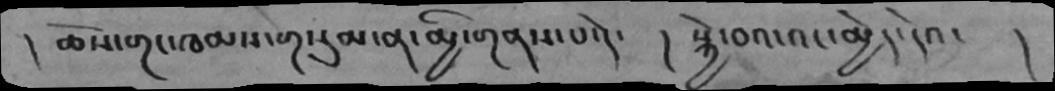། ཆོས་གང་ཁམས་གསུམ་ན་མྱི་གནས་པ་དེ་  ། སྐྱེ་བའ་འང་མྱེད་དེའ་     །
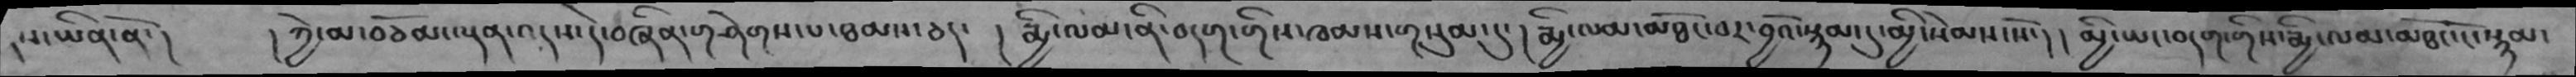།པ་ཡིན་ནོ་།     ། ཀྱེ་མ་བཅོམ་ལྡན་འདས་དེ་བཞིན་གཤེགས་པ་ཐམས་ཅད་  ། རྨྱི་ལམ་ནི་བདག་གིས་ཁམས་གསུམ་དུ་ ། རྨྱི་ལམ་མཐོང་བར་བྱའོ་སྙམ་དུ་མྱི་སེམས་སོ་། ། མྱི་ཡང་བདག་གིས་རྨྱི་ལམ་མཐོང་ངོ་སྙམ་
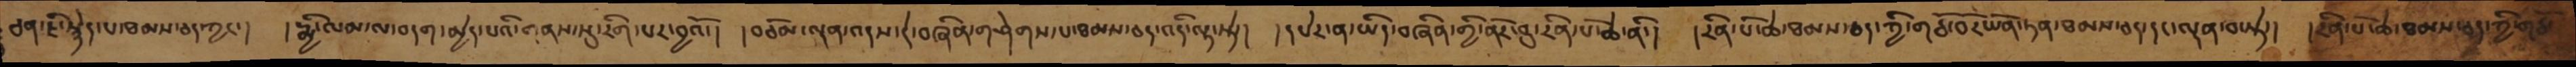ཅན་ཇི་སྙེད་པ་ཐམས་ཅད་ཀྱང་།  །རྨྱི་ལམ་ལ་བདག་མྱེད་པའི་གནས་སུ་རིག་པར་བྱའོ་།  །བཅོམ་ལྡན་འདས་དེ་བཞིན་གཤེགས་པ་ཐམས་ཅད་འདི་ལྟ་སྟེ་།  །དཔེར་ན་ཡིད་བཞིན་གྱི་ནོར་བུ་རིན་པོ་ཆེ་ནི་།  །རིན་པོ་ཆེ་ཐམས་ཅད་ཀྱི་གཙོ་བོར་ཡོན་ཏན་ཐམས་ཅད་དང་ལྡན་བ་སྟེ་།  །རིན་པོ་ཆེ་ཐམས་ཅད་ཀྱི་གཙོ
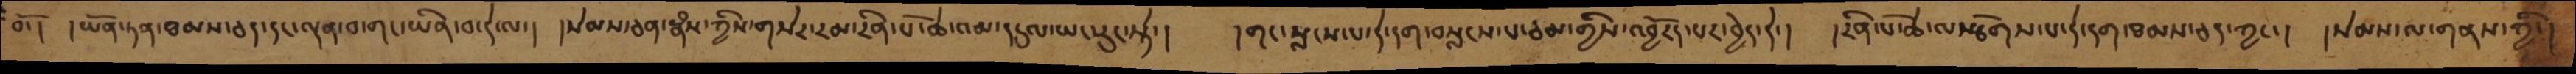བོ་། །ཡོན་ཏན་ཐམས་ཅད་དང་ལྡན་བ་གང་ཡིན་བ་དེ་ལ་། །སེམས་ཅན་རྣཾས་ཀྱིས་གསེར་རམ་རིན་པོ་ཆེ་འམ་དངུལ་ཡང་རུང་སྟེ་།  །གང་སླངས་པ་དེ་དག་བསླངས་པ་ཙམ་གྱིས་འབྱོརད་པར་བྱེད་དེ་།  །རིན་པོ་ཆེ་ལསྩོགས་པ་དེ་དག་ཐམས་ཅད་ཀྱང་།  །སེམས་ལ་གནས་ཀྱི་།
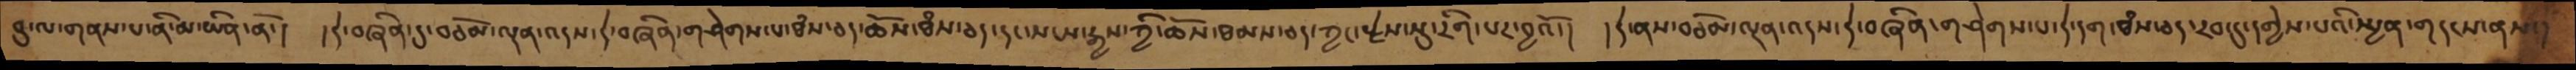བུ་ལ་གནས་པ་ནི་མ་ཡིན་ནོ་།  །དེ་བཞིན་དུ་བཅོམ་ལྡན་འདས་དེ་བཞིན་གཤེགས་པ་ཐཾས་ཅད་ཆོས་ཐཾས་ཅད་དང་སངས་རྒྱས་ཀྱི་ཆོས་ཐམས་ཅད་ཀྱང་རྗེས་སུ་རིག་པར་བྱའོ་།  །དེ་ནས་བཅོམ་ལྡན་འདས་དེ་བཞིན་གཤེགས་པ་དེ་དག་ཐཾས་ཅད་རབ་ཏུ་དགྱེས་པའི་སྤྱན་གདངས་ནས་།
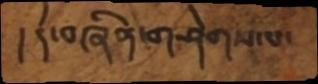།དེ་བཞིན་གཤེགས་པ་
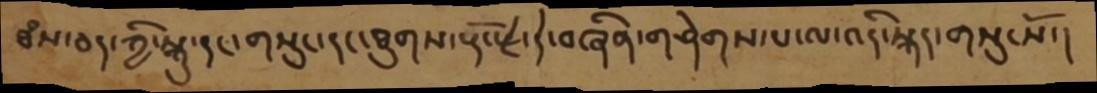ཐཾས་ཅད་ཀྱི་སྐུ་དང་གསུང་དང་ཐུགས་རྡོ་རྗེ་དེ་བཞིན་གཤེགས་པ་ལ་འདི་སྐད་གསུངསོ་།
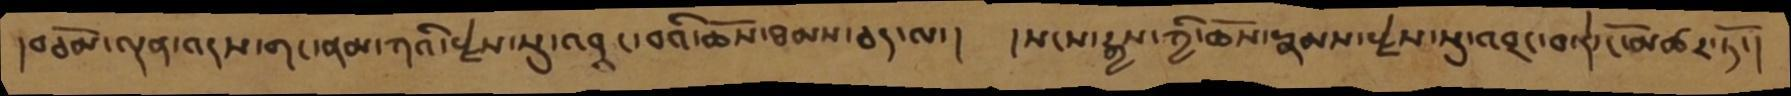།བཅོམ་ལྡན་འདས་གང་ནམ་ཀའི་རྗེས་སུ་འབྲང་བའི་ཆོས་ཐམས་ཅད་ལ་།  །སངས་རྒྱས་ཀྱི་ཆོས་རྣམས་རྗེས་སུ་འབྲང་བ་དེ་ངོ་མཚར་ཏོ་།
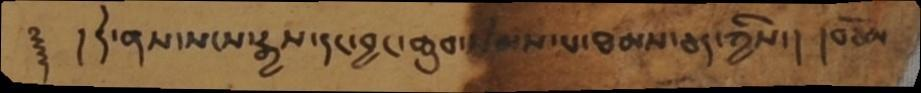༈ །དེ་ནས་སངས་རྒྱས་དང་བྱང་ཆུབ་སེམས་པ་ཐམས་ཅད་ཀྱིས་།  །བཅོམ
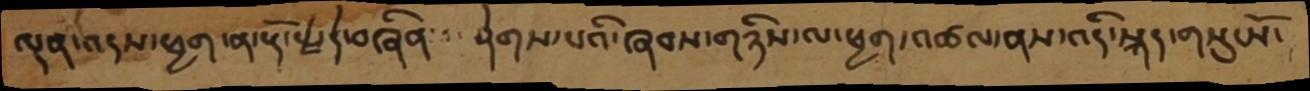ལྡན་འདས་ཕྱག་ན་རྡོ་རྗེ་དེ་བཞིན་་ གཤེགས་པའི་ཞབས་གཉིས་ལ་ཕྱག་འཚལ་ནས་འདི་སྐད་གསུངསོ་།
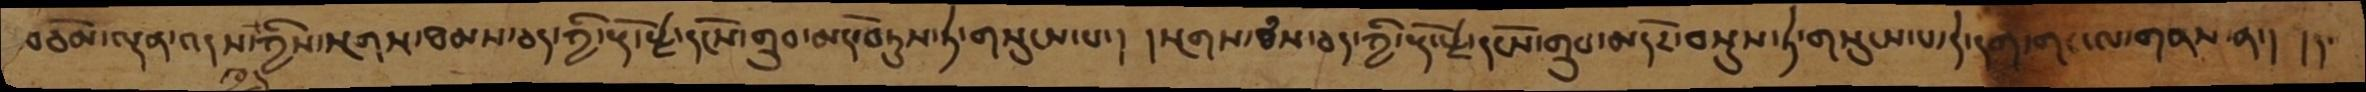བཅོམ་ལྡན་འདས་ཀྱིས་སྔགས་ཐམས་ཅད་ཀྱི་རྡོ་རྗེ་དངོས་གྲུབ་མདོ་བཏུས་ཏེ་གསུངས་པ་།  །སྔགས་ཐཾས་ཅད་ཀྱི་རྡོ་རྗེ་དངོས་གྲུབ་མདོར་བསྡུས་ཏེ་གསུངས་པ་དེ་དག་གང་ལ་གནས་ན་།  །ད་
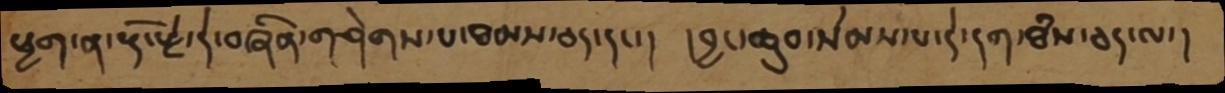ཕྱག་ན་རྡོ་རྗེ་དེ་བཞིན་གཤེགས་པ་ཐམས་ཅད་དང་།  །བྱང་ཆུབ་སེམས་པ་དེ་དག་ཐཾས་ཅད་ལ་།
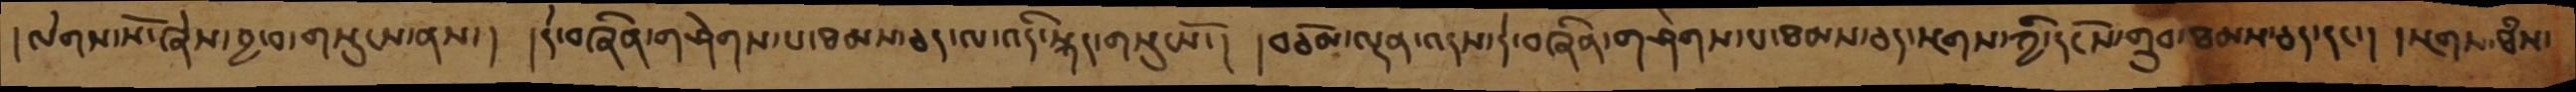།ལེགས་སོ་ཞེས་བྱ་བ་གསུངས་ནས་།  །དེ་བཞིན་གཤེགས་པ་ཐམས་ཅད་ལ་འདི་སྐད་གསུངསོ་། །བཅོམ་ལྡན་འདས་དེ་བཞིན་གཤེགས་པ་ཐམས་ཅད་སྔགས་ཀྱི་དངོས་གྲུབ་ཐམས་ཅད་དང་།  །སྔགས་ཐཾས་
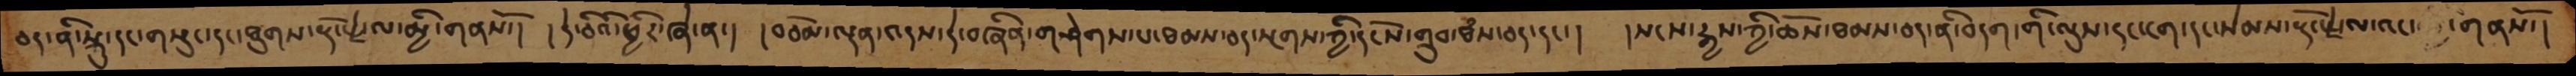ཅད་ནི་སྐུ་དང་གསུང་དང་ཐུགས་རྡོ་རྗེ་ལ་མྱི་གནསོ་། །དེ་ཅིའི་ཕྱིར་ཞེ་ན་། །བཅོམ་ལྡན་འདས་དེ་བཞིན་གཤེགས་པ་ཐམས་ཅད་སྔགས་ཀྱི་དངོས་གྲུབ་ཐཾས་ཅད་དང་།  །སངས་རྒྱས་ཀྱི་ཆོས་ཐམས་ཅད་ནི་བདག་གི་ལུས་དང་ངག་དང་སེམས་རྡོ་རྗེ་ལ་འང་  གནསོ་།
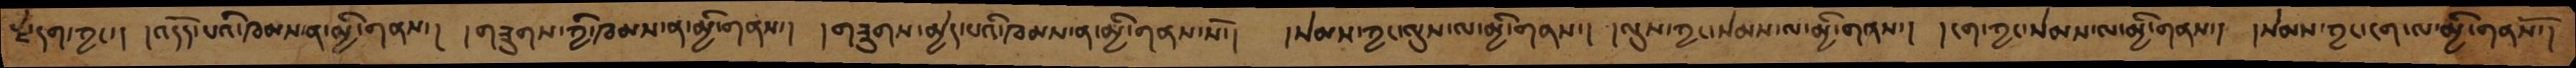རྗེ་དག་ཀྱང་།  །འདོད་པའི་ཁམས་ན་མྱི་གནས་།  །གཟུགས་ཀྱི་ཁམས་ན་མྱི་གནས་།  །གཟུགས་མྱེད་པའི་ཁམས་ན་མྱི་གནས་སོ་།  །སེམས་ཀྱང་ལུས་ལ་མྱི་གནས་།  །ལུས་ཀྱང་སེམས་ལ་མྱི་གནས་།  །ངག་ཀྱང་སེམས་ལ་མི་གནས་། །སེམས་ཀྱང་ངག་ལ་མྱི་གནསོ་།
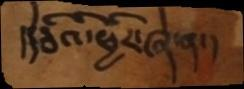།དེཅིའི་ཕྱིར་ཞེ་ན་།
